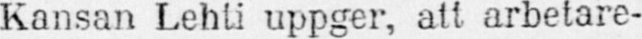Kansan Lehti uppger, att arbetare-
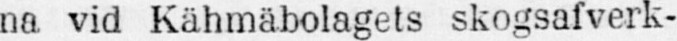na vid Kähmäbolagets skogsafverk-
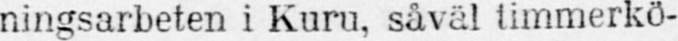ningsarbeten i Kuru, såväl timmerkö-
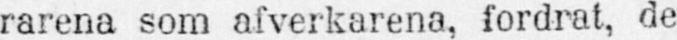rarena som afverkarena, fordrat, de
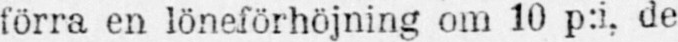förra en löneförhöjning om 10 p:i, de
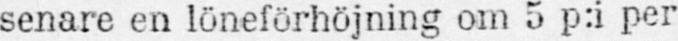senare en löneförhöjning om 5 p:i per
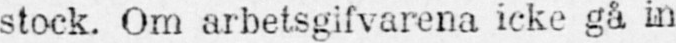stock. Om arbetsgifvarena icke gå in
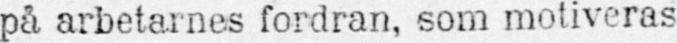på arbetarnes fordran, som motiveras
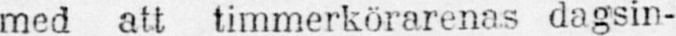med att timmerkörarenas dagsin-
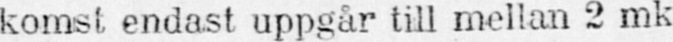komst endast uppgår till mellan 2 mk
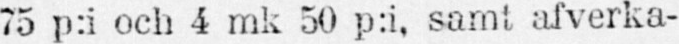75 p:i och 4 mk 50 p:i, samt afverka-
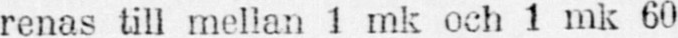renas till mellan 1 mk och 1 mk 60
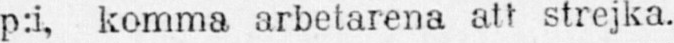p:i, komma arbetarena att strejka.
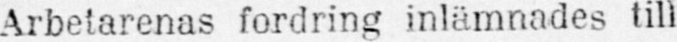Arbetarenas fordring inlämnades till
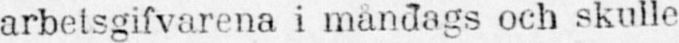arbetsgifvarena i måndags och skulle
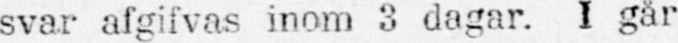svar afgifvas inom 3 dagar. I går
